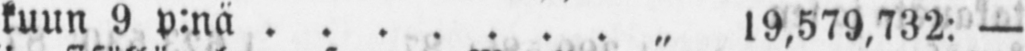kuun 9 p:nä „ 19,579.732: —
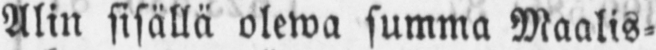Alin sisällä olewa summa Maalis-
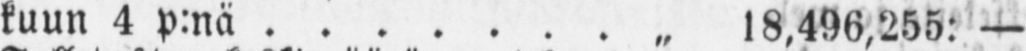kuun 4 p:nä „ l8,496,255: —
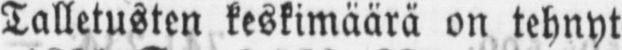Talletusten keskimäärä on tehnyt
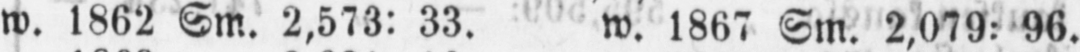w. l862 Sm. 2,573: 33. w. 1867 Sm. 2,079: 96.
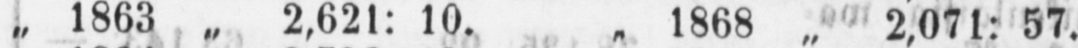„ 1863 „ 2,621: 10. „ 1868 „ 2,071: 57.
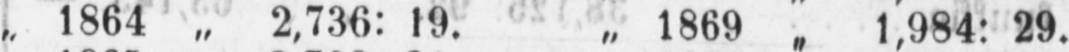„ 1864 „ 2,736: 19. „ 1869 „ 1,984: 29.
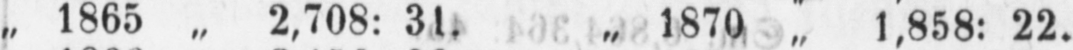„ 1865 „ 2,708: 31. „ 1870 „ 1,858: 22.
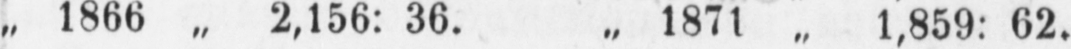„ 1866 „ 2,156: 36. „ 1871 „ 1,859: 62.
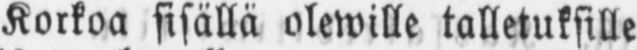Korkoa sisällä oleeille talletuksille
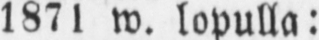1871 w. lopulla.-
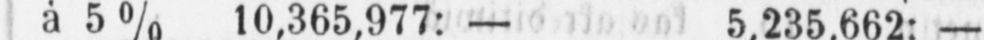ä 5% l0,365,977: — 5,235,662: —
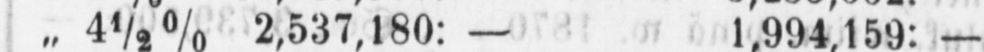„ 4½% 2,537,180: - 1,994,159: -
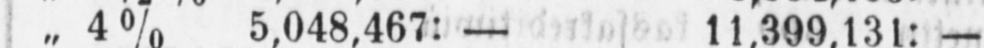„ 4% 5,048,467: — 11,399,l3l: -
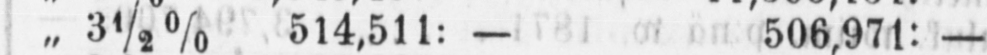„ 3½% 514.511: — 506,97l: —
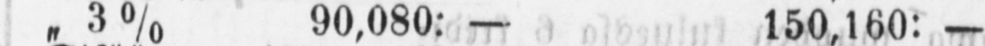„ 3% 90,080: — 150,160: -
